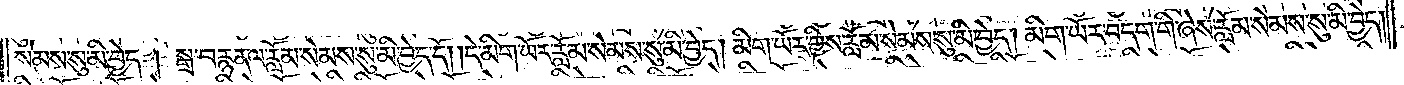སེམས་སུ་མི་བྱེད། སྒྲ་བརྙན་ལ་རློམ་སེམས་སུ་མི་བྱེད་དོ། །དེ་མིག་ཡོར་རློམ་སེམས་སུ་མི་བྱེད། མིག་ཡོར་གྱིས་རློམ་སེམས་སུ་མི་བྱེད། མིག་ཡོར་བདག་གི་ཞེས་རློམ་སེམས་སུ་མི་བྱེད།
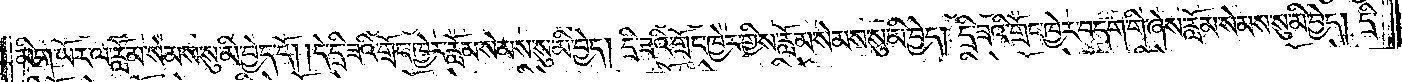མིག་ཡོར་ལ་རློམ་སེམས་སུ་མི་བྱེད་དོ། །དེ་དྲི་ཟའི་གྲོང་ཁྱེར་རློམ་སེམས་སུ་མི་བྱེད། དྲི་ཟའི་གྲོང་ཁྱེར་གྱིས་རློམ་སེམས་སུ་མི་བྱེད། དྲི་ཟའི་གྲོང་ཁྱེར་བདག་གི་ཞེས་རློམ་སེམས་སུ་མི་བྱེད། དྲི་
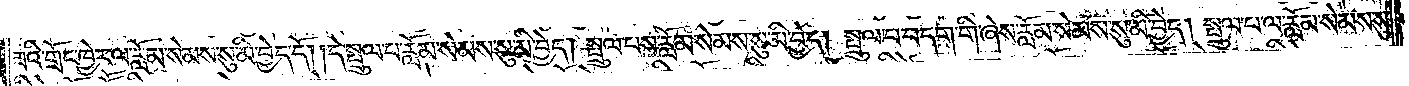ཟའི་གྲོང་ཁྱེར་ལ་རློམ་སེམས་སུ་མི་བྱེད་དོ། །དེ་སྤྲུལ་པ་རློམ་སེམས་སུ་མི་བྱེད། སྤྲུལ་པས་རློམ་སེམས་སུ་མི་བྱེད། སྤྲུལ་པ་བདག་གི་ཞེས་རློམ་སེམས་སུ་མི་བྱེད། སྤྲུལ་པ་ལ་རློམ་སེམས་སུ་
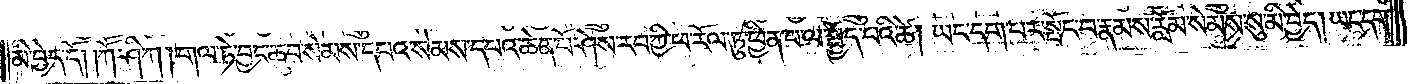མི་བྱེད་དོ། །ཀཽ་ཤི་ཀ། གལ་ཏེ་བྱང་ཆུབ་སེམས་དཔའ་སེམས་དཔའ་ཆེན་པོ་ཤེས་རབ་ཀྱི་ཕ་རོལ་ཏུ་ཕྱིན་པ་ལ་སྤྱོད་པའི་ཚེ། ཡང་དག་པར་སྤོང་བ་རྣམས་རློམ་སེམས་སུ་མི་བྱེད། ཡང་དག་
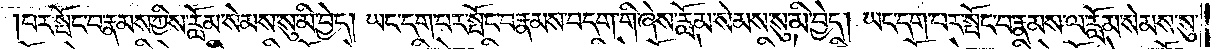པར་སྤོང་བ་རྣམས་ཀྱིས་རློམ་སེམས་སུ་མི་བྱེད། ཡང་དག་པ་སྟོང་པ་རྣམ་བདག་གི་ཞེས་རློམ་སེམས་སུ་མི་བྱེད། ཡང་དག་པར་སྤོང་བ་རྣམས་ལ་རློམ་སེམས་སུ་
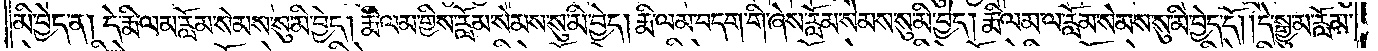མི་བྱེད་ན། དེ་རྨི་ལམ་རློམ་སེམས་སུ་མི་བྱེད། རྨི་ལམ་གྱིས་རློམ་སེམས་སུ་མི་བྱེད། རྨི་ལམ་བདག་གི་ཞེས་རློམ་སེམས་སུ་མི་བྱེད། རྨི་ལམ་ལ་རློམ་སེམས་སུ་མི་བྱེད་དོ། །དེ་སྒྱུ་མ་རློམ་
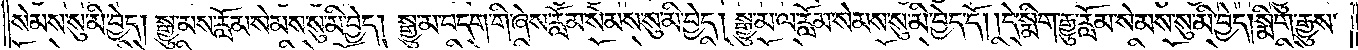སེམས་སུ་མི་བྱེད། སྒྱུ་མས་རློམ་སེམས་སུ་མི་བྱེད། སྒྱུ་མ་བདག་གི་ཞེས་རློམ་སེམས་སུ་མི་བྱེད། སྒྱུ་མ་ལ་རློམ་སེམས་སུ་མི་བྱེད་དོ། །དེ་སྨིག་རྒྱུ་རློམ་སེམས་སུ་མི་བྱེད། སྨིག་རྒྱུས་
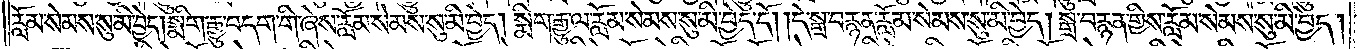རློམ་སེམས་སུ་མི་བྱེད། སྨིག་རྒྱུ་བདག་གི་ཞེས་རློམ་སེམས་སུ་མི་བྱེད། སྨིག་རྒྱུ་ལ་རློམ་སེམས་སུ་མི་བྱེད་དོ། །དེ་སྒྲ་བརྙན་རློམ་སེམས་སུ་མི་བྱེད། སྒྲ་བརྙན་གྱིས་རློམ་སེམས་སུ་མི་བྱེད།
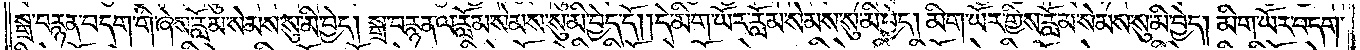སྒྲ་བརྙན་བདག་གི་ཞེས་རློམ་སེམས་སུ་མི་བྱེད། སྒྲ་བརྙན་ལ་རློམ་སེམས་སུ་མི་བྱེད་དོ། །དེ་མིག་ཡོར་རློམ་སེམས་སུ་མི་བྱེད། མིག་ཡོར་གྱིས་རློམ་སེམས་སུ་མི་བྱེད། མིག་ཡོར་བདག་
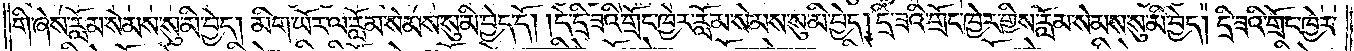གི་ཞེས་རློམ་སེམས་སུ་མི་བྱེད། མིག་ཡོར་ལ་རློམ་སེམས་སུ་མི་བྱེད་དོ། །དེ་དྲི་ཟའི་གྲོང་ཁྱེར་རློམ་སེམས་སུ་མི་བྱེད། དྲི་ཟའི་གྲོང་ཁྱེར་གྱིས་རློམ་སེམས་སུ་མི་བྱེད། དྲི་ཟའི་གྲོང་ཁྱེར་
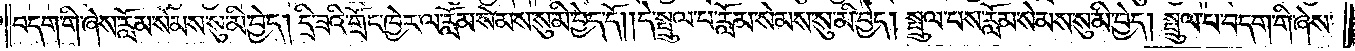བདག་གི་ཞེས་རློམ་སེམས་སུ་མི་བྱེད། དྲི་ཟའི་གྲོང་ཁྱེར་ལ་རློམ་སེམས་སུ་མི་བྱེད་དོ། །དེ་སྤྲུལ་པ་རློམ་སེམས་སུ་མི་བྱེད། སྤྲུལ་པས་རློམ་སེམས་སུ་མི་བྱེད། སྤྲུལ་པ་བདག་གི་ཞེས་
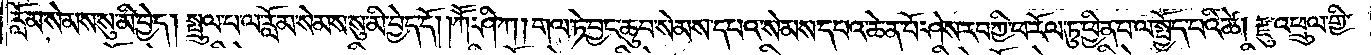རློམ་སེམས་སུ་མི་བྱེད། སྤྲུལ་པ་ལ་རློམ་སེམས་སུ་མི་བྱེད་དོ། །ཀཽ་ཤི་ཀ། གལ་ཏེ་བྱང་ཆུབ་སེམས་དཔའ་སེམས་དཔའ་ཆེན་པོ་ཤེས་རབ་ཀྱི་ཕ་རོལ་ཏུ་ཕྱིན་པ་ལ་སྤྱོད་པའི་ཚེ། རྫུ་འཕྲུལ་གྱི་
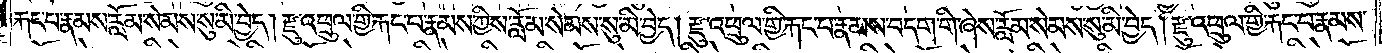རྐང་པ་རྣམས་རློམ་སེམས་སུ་མི་བྱེད། རྫུ་འཕྲུལ་གྱི་རྐང་པ་རྣམས་ཀྱིས་རློམ་སེམས་སུ་མི་བྱེད། རྫུ་འཕྲུལ་གྱི་རྐང་པ་རྣམ་བདག་གི་ཞེས་རློམ་སེམས་སུ་མི་བྱེད། རྫུ་འཕྲུལ་གྱི་རྐང་པ་རྣམས་
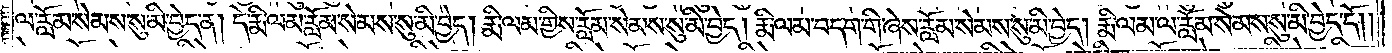ལ་རློམ་སེམས་སུ་མི་བྱེད་ན། དེ་རྨི་ལམ་རློམ་སེམས་སུ་མི་བྱེད། རྨི་ལམ་གྱིས་རློམ་སེམས་སུ་མི་བྱེད། རྨི་ལམ་བདག་གི་ཞེས་རློམ་སེམས་སུ་མི་བྱེད། རྨི་ལམ་ལ་རློམ་སེམས་སུ་མི་བྱེད་དོ། །
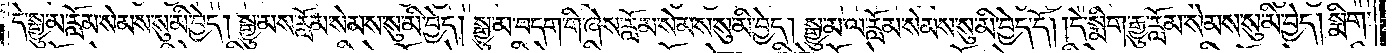དེ་སྒྱུ་མ་རློམ་སེམས་སུ་མི་བྱེད། སྒྱུ་མས་རློམ་སེམས་སུ་མི་བྱེད། སྒྱུ་མ་བདག་གི་ཞེས་རློམ་སེམས་སུ་མི་བྱེད། སྒྱུ་མ་ལ་རློམ་སེམས་སུ་མི་བྱེད་དོ། །དེ་སྨིག་རྒྱུ་རློམ་སེམས་སུ་མི་བྱེད། སྨིག་
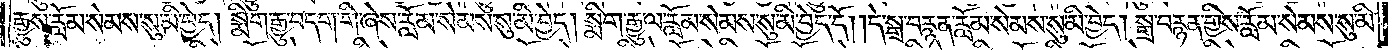རྒྱུས་རློམ་སེམས་སུ་མི་བྱེད། སྨིག་རྒྱུ་བདག་གི་ཞེས་རློམ་སེམས་སུ་མི་བྱེད། སྨིག་རྒྱུ་ལ་རློམ་སེམས་སུ་མི་བྱེད་དོ། །དེ་སྒྲ་བརྙན་རློམ་སེམས་སུ་མི་བྱེད། སྒྲ་བརྙན་གྱིས་རློམ་སེམས་སུ་མི་
